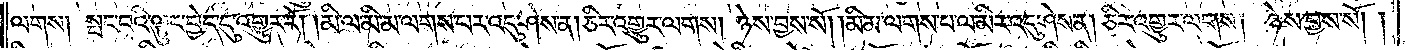ལགས། སྤང་བའི་ལྟུང་བྱེད་དུ་འགྱུར་རོ། །མི་ལ་མི་མ་ལགས་པར་འདུ་ཤེས་ན། ཅིར་འགྱུར་ལགས། ཉེས་བྱས་སོ། །མི་མ་ལགས་པ་ལ་མིར་འདུ་ཤེས་ན། ཅིར་འགྱུར་ལགས། ཉེས་བྱས་སོ། །
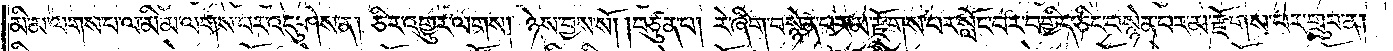མི་མ་ལགས་པ་ལ་མི་མ་ལགས་པར་འདུ་ཤེས་ན། ཅིར་འགྱུར་ལགས། ཉེས་བྱས་སོ། །བཙུན་པ། རེ་ཞིག་བསྙེན་པར་མ་རྫོགས་པར་སློང་བར་བགྱིད་ཅིང་བསྙེན་པར་མ་རྫོགས་པར་གྲུབ་ན།
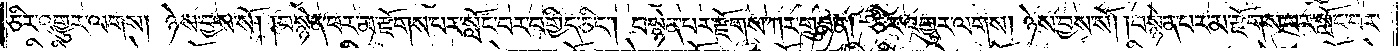ཅིར་འགྱུར་ལགས། ཉེས་བྱས་སོ། །བསྙེན་པར་མ་རྫོགས་པར་སློང་བར་བགྱིད་ཅིང༌། བསྙེན་པར་རྫོགས་ཀར་གྲུབ་ན། ཅིར་འགྱུར་ལགས། ཉེས་བྱས་སོ། །བསྙེན་པར་མ་རྫོགས་པར་སློང་བར་
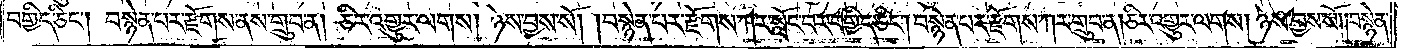བགྱིད་ཅིང༌། བསྙེན་པར་རྫོགས་ནས་གྲུབ་ན། ཅིར་འགྱུར་ལགས། ཉེས་བྱས་སོ། །བསྙེན་པར་རྫོགས་ཀར་སློང་བར་བགྱིད་ཅིང༌། བསྙེན་པར་རྫོགས་ཀར་གྲུབ་ན། ཅིར་འགྱུར་ལགས། ཉེས་བྱས་སོ། །བསྙེན་
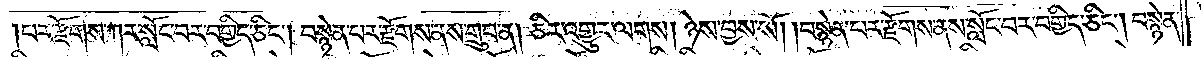།པར་རྫོགས་ཀར་སློང་བར་བགྱིད་ཅིང༌། བསྙེན་པར་རྫོགས་ནས་གྲུབ་ན། ཅིར་འགྱུར་ལགས། ཉེས་བྱས་སོ། །བསྙེན་པར་རྫོགས་ནས་སློང་བར་བགྱིད་ཅིང༌། བསྙེན་
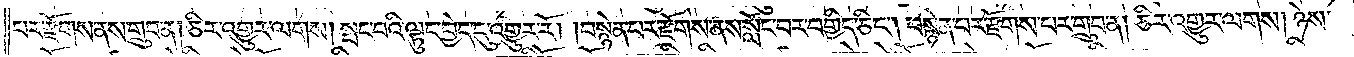པར་རྫོགས་ནས་གྲུབ་ན། ཅིར་འགྱུར་ལགས། སྤང་བའི་ལྟུང་བྱེད་དུ་འགྱུར་རོ། །བསྙེན་པར་རྫོགས་ནས་སློང་བར་བགྱིད་ཅིང༌། བསྙེན་པར་རྫོགས་པར་གྲུབ་ན། ཅིར་འགྱུར་ལགས། ཉེས་
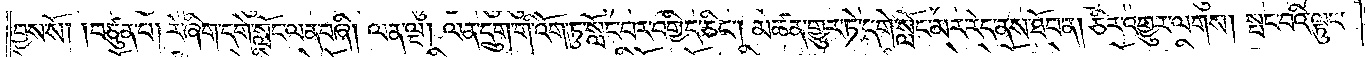བྱས་སོ། །བཙུན་པ། རེ་ཞིག་དགེ་སློང་ལན་བཞི། ལན་ལྔ། ལན་དྲུག་གི་འོག་ཏུ་སློང་བར་བགྱིད་ཅིང༌། མཚན་གྱུར་ཏེ་དགེ་སློང་མར་རེད་ནས་ཐོབ་ན། ཅིར་འགྱུར་ལགས། སྤང་བའི་ལྟུང་
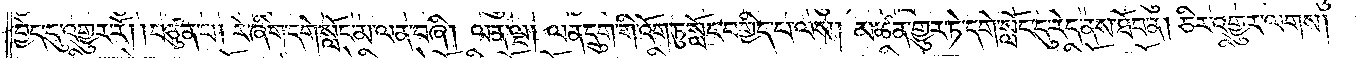བྱེད་དུ་འགྱུར་རོ། །བཙུན་པ། རེ་ཞིག་དགེ་སློང་མ་ལན་བཞི། ལན་ལྔ། ལན་དྲུག་གི་འོག་ཏུ་སློང་བགྱིད་པ་ལས། མཚན་གྱུར་ཏེ་དགེ་སློང་དུ་རེད་ནས་ཐོབ་ན། ཅིར་འགྱུར་ལགས།
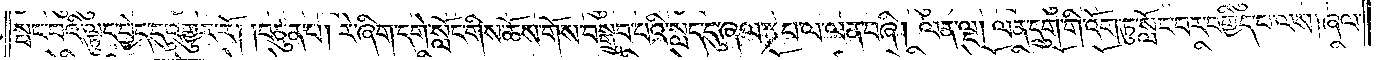སྤང་བའི་ལྟུང་བྱེད་དུ་འགྱུར་རོ། །བཙུན་པ། རེ་ཞིག་དགེ་སློང་གིས་ཆོས་གོས་བསྒྲུབ་པའི་སླད་དུ་ཞལ་ཏ་པ་ལ་ལན་བཞི། ལན་ལྔ། ལན་དྲུག་གི་འོག་ཏུ་སློང་བར་བགྱིད་པ་ལས། ཞལ་
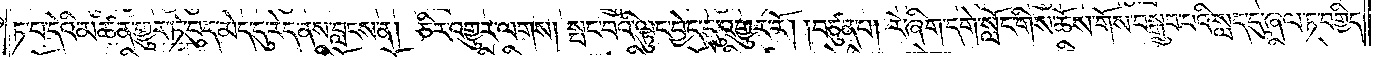ཏ་པ་དེའི་མཚན་གྱུར་ཏེ་བུད་མེད་དུ་རེད་ནས་བླངས་ན། ཅིར་འགྱུར་ལགས། སྤང་བའི་ལྟུང་བྱེད་དུ་འགྱུར་རོ། །བཙུན་པ། རེ་ཞིག་དགེ་སློང་གིས་ཆོས་གོས་བསྒྲུབ་པའི་སླད་དུ་ཞལ་ཏ་བགྱིད་
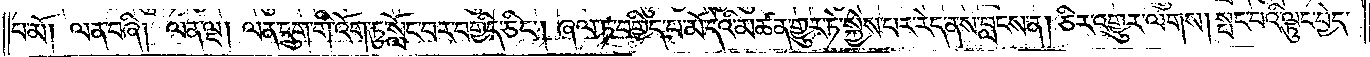བ་མོ། །ལན་བཞི། ལན་ལྔ། ལན་དྲུག་གི་འོག་ཏུ་སློང་བར་བགྱིད་ཅིང༌། ཞལ་ཏ་བགྱིད་པ་མོ་དེའི་མཚན་གྱུར་ཏེ་སྐྱེས་པར་རེད་ནས་བླངས་ན། ཅིར་འགྱུར་ལགས། སྤང་པའི་ལྟུང་བྱེད་
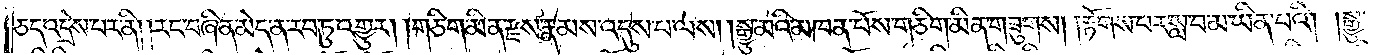ཅད་འདྲེས་པར་ནི། །རང་བཞིན་མེད་ན་རབ་ཏུ་འགྱུར། །གཅིག་མིན་རྫས་རྣམས་འདུས་པ་ལས། །སྒྱུ་མའི་མཁན་པོས་གཅིག་མིན་གཟུགས། །རྟོགས་པར་སླ་བ་མ་ཡིན་པའི།  །སྒྱུ་
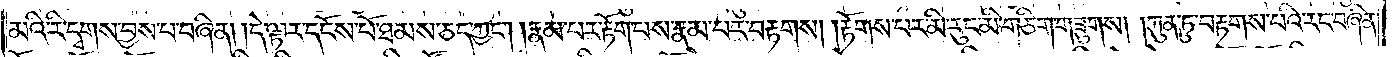མའི་རི་དྭགས་བྱས་པ་བཞིན། །དེ་ལྟར་དངོས་པོ་ཐམས་ཅད་ཀྱང་། རྣམ་པར་རྟོགས་པས་རྣམ་པར་རྟགས། རྟོགས་པར་མི་རུང་མི་གཅིག་གཟུགས། ཀུན་ཏུ་རྟགས་པའི་རང་བཞིན་
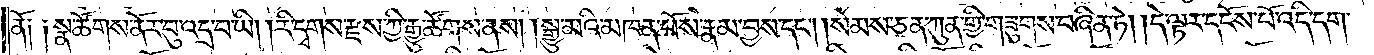ནོ༑ ༑སྣ་ཚོགས་ནོར་བུ་འདྲ་བ་ཡི། །རི་དྭགས་རྫས་ཀྱི་རྒྱུ་ཚོགས་ནས། སྒྱུ་མའི་མཁན་པོས་རྣམ་བྱས་དང་། །སེམས་ཅན་ཀུན་གྱི་གཟུགས་བཞིན་ཏེ། །དེ་ལྟར་དངོས་པོ་འདི་དག་
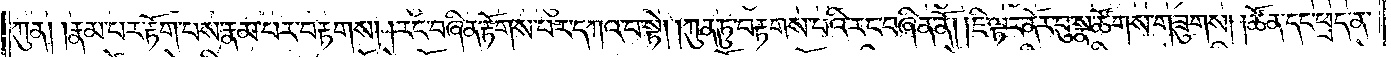ཀུན། །རྣམ་པར་རྟོགས་པས་རྣམ་པར་བརྟགས། །རང་བཞིན་རྟོགས་པར་དཀའ་བ་སྟེ། །ཀུན་ཏུ་བརྟགས་རང་བཞིན་ནོ། །ཇི་ལྟར་ནོར་བུ་སྣ་ཚོགས་གཟུགས། །ཚོན་དང་ཕྲད་ན་
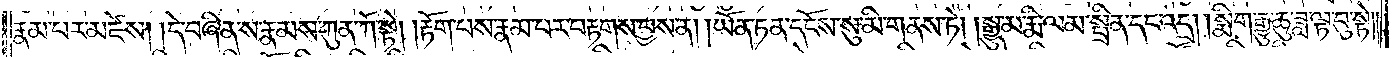རྣམ་པར་མཛེས། དེ་བཞིན་ས་རྣམས་ཀུན་ཀོ་སྟེ། རྟོགས་པས་རྣམ་པར་བརྟགས་བྱས་ན། །ཡོན་ཏན་དངོས་སུ་མི་གནས་ཏེ། །སྒྱུ་མ་རྨི་ལམ་སྤྲིན་དང་འདྲ། །སྨིག་རྒྱུ་ཆུ་ཟླ་ལྟ་བུ་སྟེ༎
